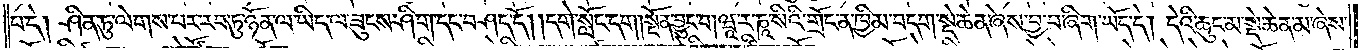པ་དེ། ཤིན་ཏུ་ལེགས་པར་རབ་ཏུ་ཉོན་ལ་ཡིད་ལ་ཟུངས་ཤིག་དང་བཤད་དོ། །དགེ་སློང་དག །སྔོན་བྱུང་བ། ཝཱ་ར་ཎཱ་སིའི་གྲོང་ན་ཁྱིམ་བདག་སྡེ་ཆེན་ཞེས་བྱ་བ་ཞིག་ཡོད་དེ། དེའི་ཆུང་མ་སྡེ་ཆེན་མ་ཞེས་
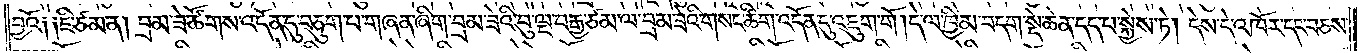བྱའོ༑ ༑ཇི་ཙམ་ན། བྲམ་ཟེ་ཚོགས་འདོན་དུ་བཅུག་པ་གཞན་ཞིག་བྲམ་ཟེའི་བུ་ལྔ་བརྒྱ་ཙམ་ལ་བྲམ་ཟེའི་གསང་ཚིག་འདོན་དུ་འཇུག་གོ །དེ་ལ་ཁྱིམ་བདག་སྡེ་ཆེན་དད་པ་སྐྱེས་ཏེ། དེས་དེ་འཁོར་དང་བཅས་
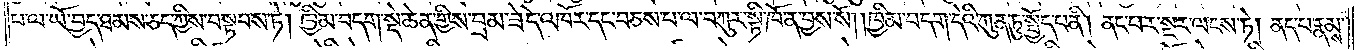པ་ལ་ཡོ་བྱད་ཐམས་ཅད་ཀྱིས་བསྟབས་ཏེ། ཁྱིམ་བདག་སྡེ་ཆེན་གྱིས་བྲམ་ཟེ་དེ་འཁོར་དང་བཅས་པ་ལ་བཀུར་སྟི་ཁོ་ན་བྱས་སོ། །ཁྱིམ་བདག་དེའི་ཀུན་ཏུ་སྤྱོད་པ་ནི། ནང་བར་སྔར་ལངས་ཏེ། ནད་པ་རྣམས་
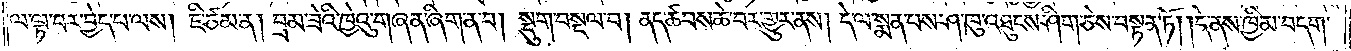ལ་ལྟ་བར་བྱེད་པ་ལས། ཇི་ཙམ་ན། བྲམ་ཟེའི་ཁྱེའུ་གཞན་ཞིག་ན་བ། སྡུག་བསྔལ་བ། ནད་ཚབས་ཆེ་བར་གྱུར་ནས། དེ་ལ་སྨན་པས་ཤ་ཁུ་འཐུངས་ཤིག་ཅེས་བསྟན་ཏོ། །དེ་ནས་ཁྱིམ་བདག་
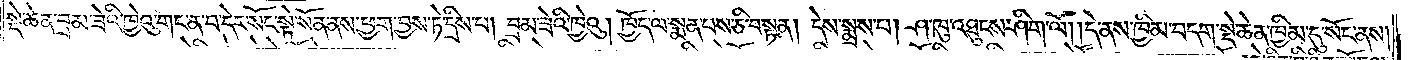སྡེ་ཆེན་བྲམ་ཟེའི་ཁྱེའུ་གང་ན་བ་དེར་སོང་སྟེ་སོན་ནས་ཕྱག་བྱས་ཏེ་དྲིས་པ། བྲམ་ཟེའི་ཁྱེའུ། ཁྱོད་ལ་སྨན་པས་ཅི་བསྟན། དེས་སྨྲས་པ། ཤ་ཁུ་འཐུངས་ཤིག་ལོ། །དེ་ནས་ཁྱིམ་བདག་སྡེ་ཆེན་ཁྱིམ་དུ་སོང་ནས།
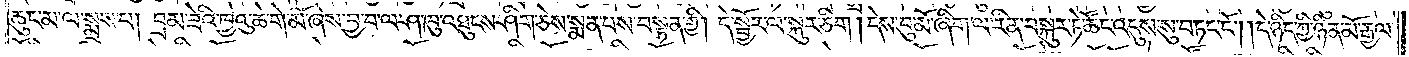ཆུང་མ་ལ་སྨྲས་པ། བྲམ་ཟེའི་ཁྱེའུ་ཆེ་གེ་མོ་ཞེས་བྱ་བ་ལ་ཤ་ཁུ་འཐུངས་ཤིག་ཅེས་སྨན་པས་བསྟན་གྱི། དེ་སྦྱོར་ལ་སྐུར་ཅིག །དེས་བུ་མོ་ཞིག་ལ་རིན་བསྐུར་ཏེ་ཚོང་འདུས་སུ་བཏང་ངོ༌། །དེ་ཉིད་ཀྱི་ཉིན་མོ་རྒྱལ་
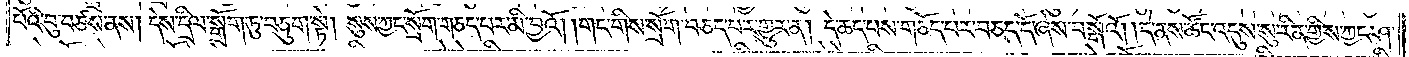པོའི་བུ་བཙས་ནས། དེས་དྲིལ་སྒྲོག་ཏུ་བཅུག་སྟེ། སུས་ཀྱང་སྲོག་གཅད་པར་མི་བྱའོ། །གང་གིས་སྲོག་བཅད་པར་གྱུར་ན། དེ་ཆད་པས་གཅོད་པར་བཅད་དོ་ཞེས་བསྒོའོ། །དེ་ནས་ཚོང་འདུས་སུ་རིན་གྱིས་ཀྱང་ཤ་
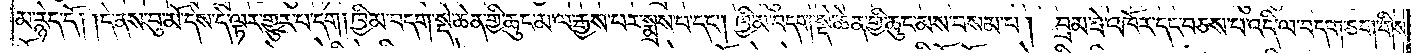མ་རྙེད་དོ། །དེ་ནས་བུ་མོ་དེས་དེ་ལྟར་གྱུར་པ་དག །ཁྱིམ་བདག་སྡེ་ཆེན་གྱི་ཆུང་མ་ལ་རྒྱས་པར་སྨྲས་པ་དང༌། ཁྱིམ་བདག་སྡེ་ཆེན་གྱི་ཆུང་མས་བསམ་པ། བྲམ་ཟེ་འཁོར་དང་བཅས་པ་འདི་ལ་བདག་ཅག་གིས་
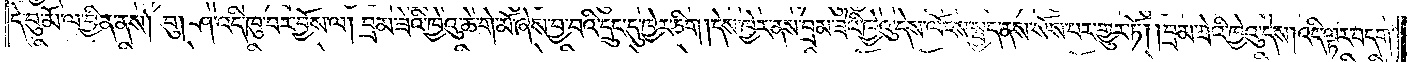དེ་བུ་མོ་ལ་བྱིན་ནས། བུ། ཤ་འདི་ཁུ་བར་བྱོས་ལ། བྲམ་ཟེའི་ཁྱེའུ་ཆེ་གེ་མོ་ཞེས་བྱ་བའི་དྲུང་དུ་ཁྱེར་ཅིག །དེས་ཁྱེར་ནས་བྲམ་ཟེའི་ཁྱེའུ་དེས་ལོངས་སྤྱད་ནས་སོས་པར་གྱུར་ཏོ། །བྲམ་ཟེའི་ཁྱེའུ་དེས། འདི་ལྟར་བདག་
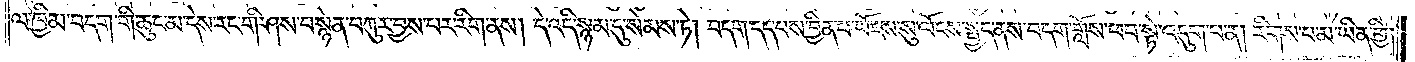ལ་ཁྱིམ་བདག་གི་ཆུང་མ་དེས་རང་གི་ཤས་བསྙེན་བཀུར་བྱས་པར་རིག་ནས། དེ་འདི་སྙམ་དུ་སེམས་ཏེ། བདག་དད་པས་བྱིན་པ་ཡོངས་སུ་ལོངས་སྤྱད་ནས་བདག་གློས་ཕབ་སྟེ་འདུག་པ་ན། རིགས་པ་མ་ཡིན་གྱི།
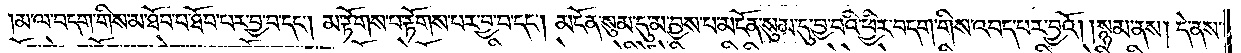མ་ལ་བདག་གིས་མ་ཐོབ་པ་ཐོབ་པར་བྱ་བ་དང༌། མ་རྟོགས་པ་རྟོགས་པར་བྱ་བ་དང༌། མངོན་སུམ་དུ་མ་བྱས་པ་མངོན་སུམ་དུ་བྱ་བའི་ཕྱིར་བདག་གིས་འབད་པར་བྱའོ། །སྙམ་ནས། དེ་ནས་
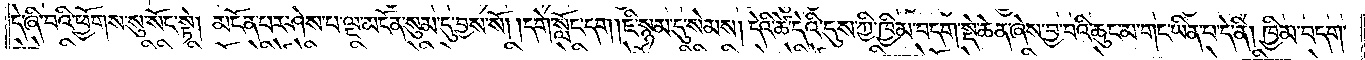དེ་ཞི་བའི་ཕྱོགས་སུ་སོང་སྟེ། མངོན་པར་ཤེས་པ་ལྔ་མངོན་སུམ་དུ་བྱས་སོ། །དགེ་སློང་དག །ཇི་སྙམ་དུ་སེམས། དེའི་ཚེ་དེའི་དུས་ཀྱི་ཁྱིམ་བདག་སྡེ་ཆེན་ཞེས་བྱ་བའི་ཆུང་མ་གང་ཡིན་པ་དེ་ནི། ཁྱིམ་བདག་
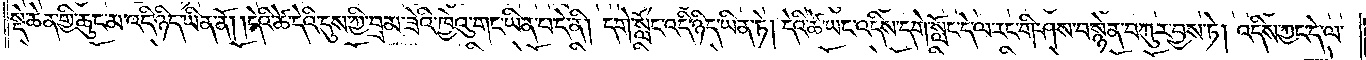སྡེ་ཆེན་གྱི་ཆུང་མ་འདི་ཉིད་ཡིན་ནོ། །དེའི་ཚེ་དེའི་དུས་ཀྱི་བྲམ་ཟེའི་ཁྱེའུ་གང་ཡིན་པ་དེ་ནི། དགེ་སློང་འདི་ཉིད་ཡིན་ཏེ། དེའི་ཚེ་ཡང་འདིས་དགེ་སློང་དེ་ལ་རང་གི་ཤས་བསྙེན་བཀུར་བྱས་ཏེ། འདིས་ཀྱང་དེ་ལ་
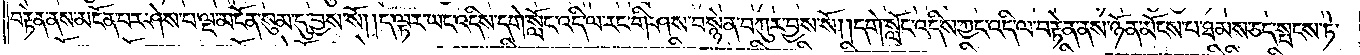བརྟེན་ནས་མངོན་པར་ཤེས་པ་ལྔ་མངོན་སུམ་དུ་བྱས་སོ། །ད་ལྟར་ཡང་འདིས་དགེ་སློང་འདི་ལ་རང་གི་ཤས་བསྙེན་བཀུར་བྱས་སོ། །དགེ་སློང་འདིས་ཀྱང་འདི་ལ་བརྟེན་ནས་ཉོན་མོངས་པ་ཐམས་ཅད་སྤངས་ཏེ་
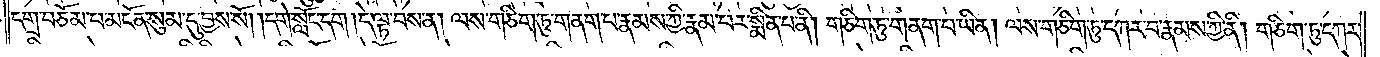དགྲ་བཅོམ་པ་མངོན་སུམ་དུ་བྱས་སོ། །དགེ་སློང་དག །དེ་ལྟ་བས་ན། ལས་གཅིག་ཏུ་གནག་པ་རྣམས་ཀྱི་རྣམ་པར་སྨིན་པ་ནི། གཅིག་ཏུ་གནག་པ་ཡིན། ལས་གཅིག་ཏུ་དཀར་བ་རྣམས་ཀྱི་ནི། གཅིག་ཏུ་དཀར་
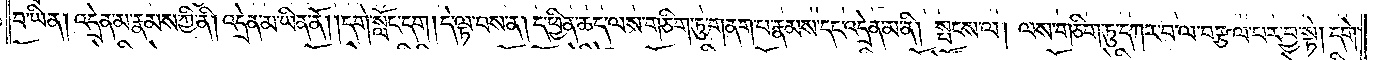བ་ཡིན། འདྲེན་མ་རྣམས་ཀྱི་ནི། འདྲེན་མ་ཡིན་ནོ། །དགེ་སློང་དག །དེ་ལྟ་བས་ན། ད་ཕྱིན་ཆད་ལས་གཅིག་ཏུ་གནག་པ་རྣམས་དང་འདྲེན་མ་ནི། སྤངས་ལ། ལས་གཅིག་ཏུ་དཀར་བ་ལ་བརྩལ་པར་བྱ་སྟེ། དགེ་
